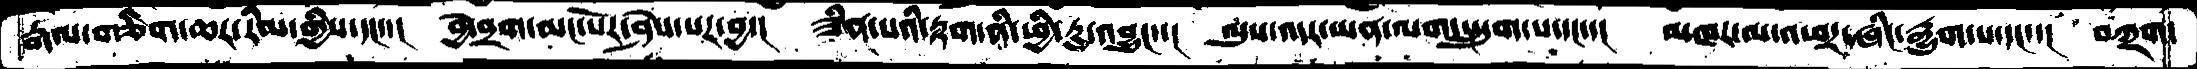རྒལ་གཅིག་ཆར་རིམ་གྱིས་དང་་།  བྱེ་བྲག་མང་པོར་ཤེས་པར་བྱ་།  ཟིན་པའི་རྟག་ནི་ཕྱི་རུ་འབྱུང་་།  ལུས་འདར་ཡན་ལག་སྤྲུག་པ་དང་་།  མཁར་ལ་འཕར་ཞིང་རྒྱུག་པ་དང་་།  བཀྲག་
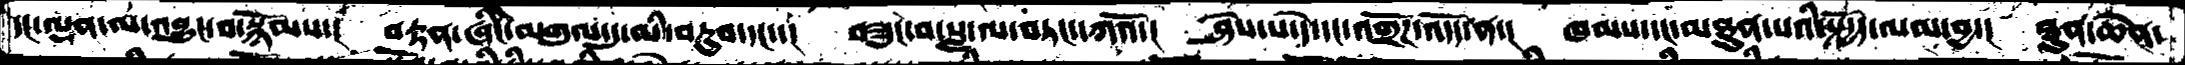དང་ལྡན་ལ་འབྱུང་བ་སྙོམས་།  བརྟན་ཞིང་མགུལ་དུ་མི་བཏུབ་དང་་།  བཟུང་བ་སླ་ལ་བཏང་དཀའོ་།  ཤེས་པ་དེ་དང་འགྲོཌ་འདོད་ན་།  ཁམས་དང་མཐུན་པའི་སྤྱོད་ལམ་བྱ་།  ཐུན་ཆེན་
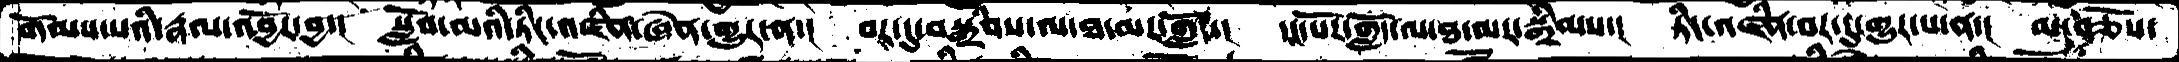གོམས་པའི་རྣལ་འབྱོར་བྱ་།   སློབ་མའི་ཏིང་འཛིན་ཞེན་གྱུར་ན་།  བར་དུ་བསྒྲིབས་ལ་ཐ་མར་གློད་།  དང་པོར་གློད་ལ་ཐ་མར་སྒྲིམས་།  ཏིང་འཛིན་བར་དུ་གྱུར་པ་ན་།  མ་བཅོས་
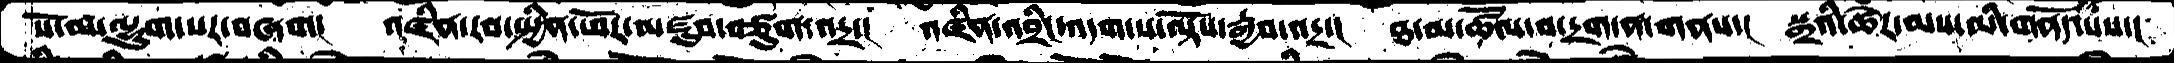སོ་མ་ལྷུག་པར་བཞག།  འཛིན་རབ་སྤྱིན་ཕོར་མཛུབ་བཙུག་འདྲ་།  འཛིན་འབྲིང་འདག་པ་ལྟོས་རྒྱབ་འདྲ་།  ཐ་མ་ཚོལ་བ་དྲག་ན་གནས་།  སྒྲའི་ཚེར་མས་མི་གནོད་པས་།
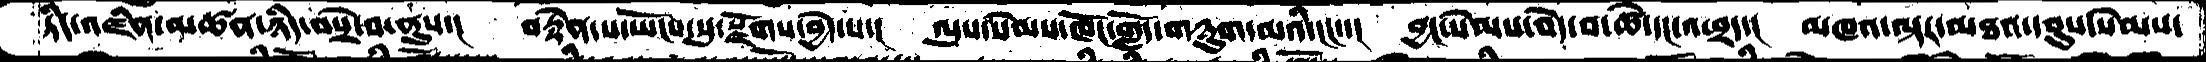ཏིང་འཛིན་མཚན་ཉིད་བསྲེ་བ་ནུས་།  བརྟེན་པ་ཡོངས་སུ་སྫོགས་བྱེད་པ་།  ལུས་སེམས་ཁོང་གློད་གཉུག་མའི་ངང་་།  བྱང་སེམས་བདེ་བ་ཚེ་དང་འཕྲད་།  མཁའ་ལྟར་མཐའ་དབུས་སེམས་
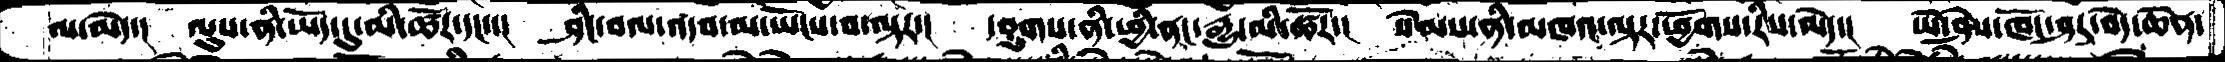ལ་མེད་།  ལུས་ནི་ཡོད་དུ་མི་ཚོར་དང་་།  ཤིང་བལ་འདབ་མ་ཡོངས་བ་ལྟར་།  དབུགས་ནི་ཕྱི་ནང་རྒྱུ་མི་ཚོར་།  སེམས་ནི་མཁའ་ལྟར་ཕྱོགས་རིས་མེད་།  ཡེ་ཤེས་ཁོང་ཤར་བདེ་ཆེན་
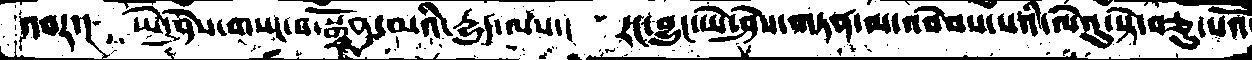འབར་།  ཡེ་ཤེས་གསང་བ་སྒྲོན་མའི་དྱུད་ལས་།   རང་བྱུང་ཡེ་ཤེས་གཏན་ལ་འབེབས་པའི་ལེའུ་སྟེ་བཅུ་པའོ་།
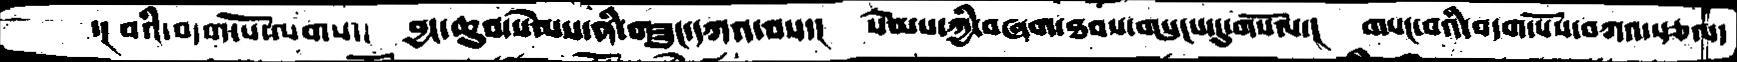་།བའི་བདག་པོ་ལགས་།  བྱང་ཆུབ་སེམས་ནི་གཟུང་དཀའ་བས་།  སེམས་ཀྱི་བཞག་ཐབས་གསུངས་དུ་གསོལ་།   གསང་བའི་བདག་པོས་བཀའ་སྩལ་
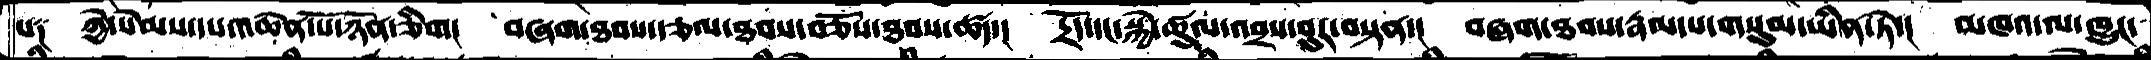པ༑  ཀྱེ་སེམས་དཔའ་ཆེན་པོ་ཉོན་ཅིག།  བཞག་ཐབས་རྩལ་ཐབས་བཅོས་ཐབས་ཚད་།  དྲོད་དང་སྐྱེ་ཚུལ་འབྲས་བུར་བསྟན་།  བཞག་ཐབས་རྣམ་པ་གསུམ་ཡིན་ཏེ་།  མཁའ་ལ་ཁྱུང་
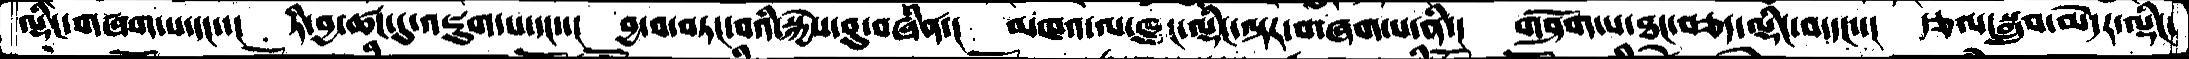ལྡིང་གཞག་པ་དང་་།  ཏི་བྱ་ཚང་དུ་འཇུག་པ་དང་་།  བྱ་བ་བཏང་བའི་སྐྱེས་བུ་བཞིན་།  མཁའ་ལ་ཁྱུང་ལྡིང་ལྟར་གཞག་པ་ནི་།  གཤོག་པ་ཐང་བཅད་ལྡིང་བ་དང་་།  རྩལ་སྒྲུབ་མེདར་ལྡིང་
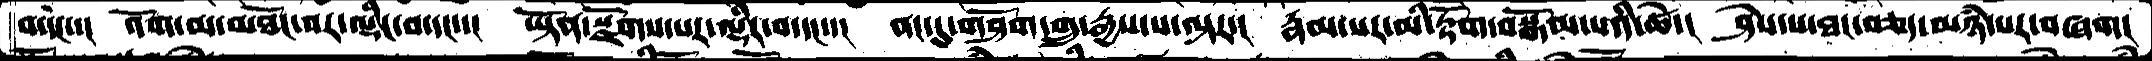བ་དང་་།  འོག་མ་མཐོང་བར་ལྡིང་བ་དང་་།  ཡྟོན་སྫོགས་པར་ལྡིང་བ་དང་་།  ནང་དུ་གཤོག་གྲུ་རྒྱས་པ་ལྟར་།  རྣམ་པར་མི་རྟོག་བསྒོམ་པའི་ཚེ་།  ཤེས་པ་ཐང་བཅད་མཉཾ་པར་བཞག།
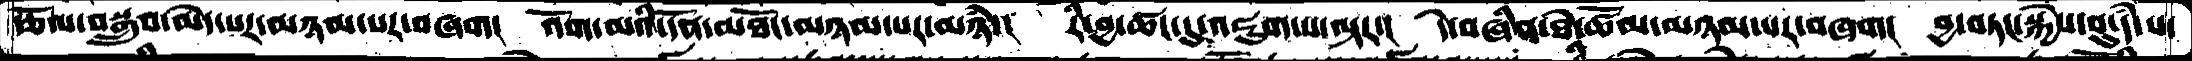རྩོལ་བསྒྲུབ་མེད་པར་མཉམ་པར་བཞག།  འོག་མའི་དོན་མཐོང་མཉམ་པར་མཉཾ་།  རི་བྱ་ཚང་དུ་འཇུག་པ་ལྟར་།  དེ་བཞིན་ཐེ་ཚོམ་མཉམ་པར་བཞག།  བྱ་བཏང་སྐྱེས་བུ་དཾ་པ་
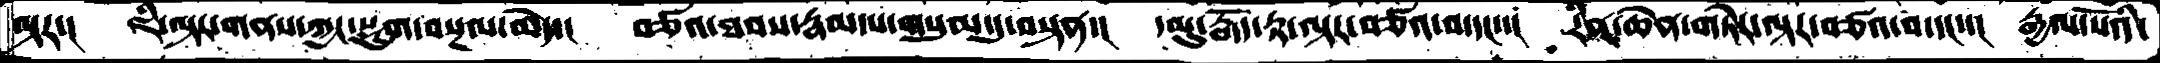ལྟར་།  ཇི་ལྟར་གནས་ཀྱང་སྡུག་བསྔལ་མེད་།  བཙའ་ཐབས་རྣམ་པ་གསུམ་དུ་བསྟན་།  དམུ་རྒོད་རྟ་ལྟར་བཙའ་བ་དང་་།  རིན་ཆེན་གཏེར་ལྟར་བཙའ་བ་དང་་།  རྒྱལ་པོའི་
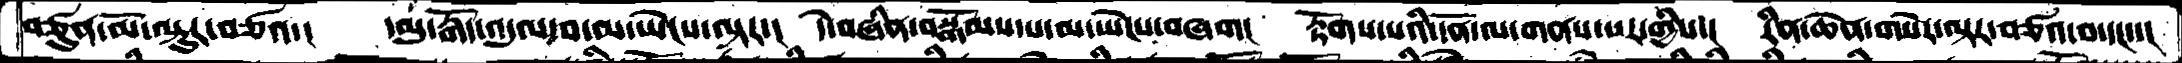བཙུན་མོ་ལྟུར་བཙའ་།  དམུ་རྒོད་འདུལ་བ་མ་ཡེངས་ལྟར་།  དེ་བཞིན་བསྒོམས་པ་མ་ཡེངས་བཞག།  རྟོགས་པའི་དོན་ལ་གནས་པར་གྱིས་།  རིན་ཆེན་གསེར་ལྟར་བཙའ་བ་དང་་།
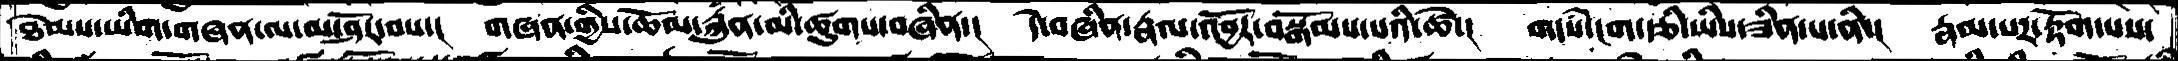ཐེམས་ཡིག་གཞན་ལ་མ་ཤོར་བས་།  གཞན་གྱིས་ཆོམ་རྐུན་མི་ཚུགས་བཞིན་།  དེ་བཞིན་རྣལ་འབྱོར་བསྒོམས་པའི་ཚེ་།  གདཾས་ངག་རྩི་ཡིས་ཟིན་པ་ནི་།  རྣམ་པར་རྟོག་པས་
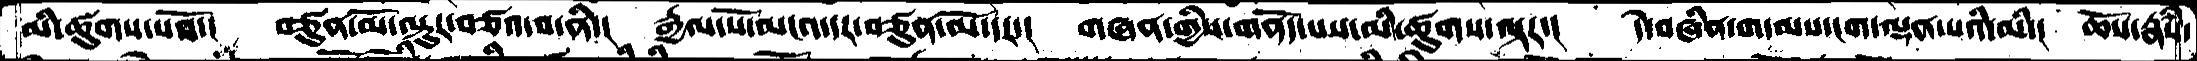མི་ཚུགས་པའོ་།  བཙུན་མོ་ལྟུར་བཙའ་བ་ནི་།  རྒྱལ་པོ་མངའ་དར་བཙུན་མོ་དར་།  གཞན་གྱིས་གནོད་པས་མི་ཚུགས་ལྟར་།  དེ་བཞིན་གདམས་ངག་ལྡན་པའི་མི་།  ཆོས་རྣཾས་
